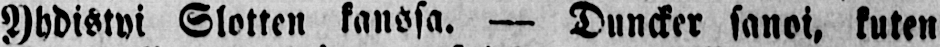Yhdistyi Slotten kanssa. — Duncker sanoi, kuten
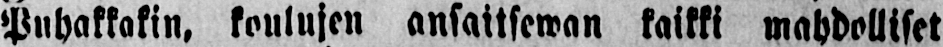Puhakkakin, koulujen ansaitsewan kaikki mahdolliset
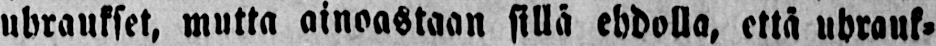uhraukset, mutta ainoastaan sillä ehdolla, että uhrauk-
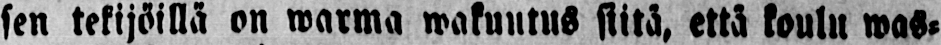sen tekijöillä on warma wakuutus siitä, että koulu was-
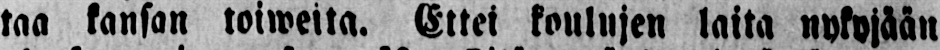taa kansan toiwetta. Ettei koulujen laita nykyjään
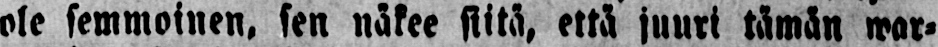ole semmoinen, sen näkee siitä, että juuri tämän war-
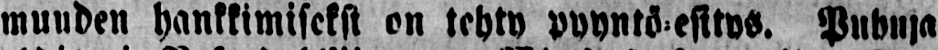muuden hankkimiseksi on tehty pyyntö-esitys. Puhuja
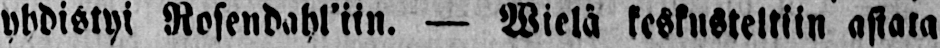yhdistyi Rosendahl’iin. — Vielä keskusteltiin asiata
